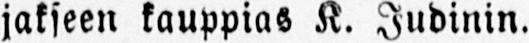jakseen kauppias K. Judinin.
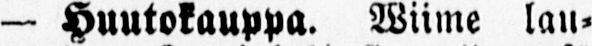— Huutokauppa. Wiime lau-
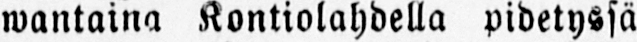wantaina Kontiolahdella pidetyssä
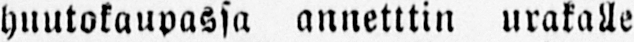huutokaupassa annettiin urakalle
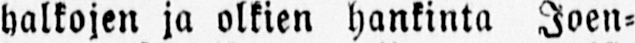halkojen ja olkien hankinta Joen-
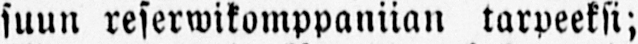suun reserwikomppaniian tarpeeksi;
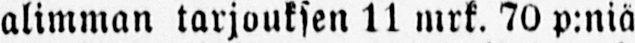alimman tarjouksen 11 mrk. 70 p:niä
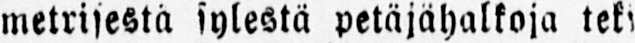metrisestä sylestä petäjähalkoja teki
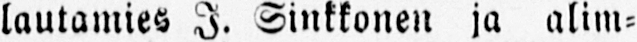lautamies I. Sinkkonen ja alim-
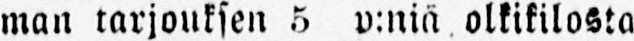man tarjouksen 5 p:niä olkikilosta
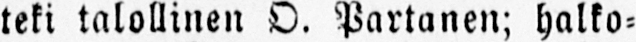teki talollinen O. Partanen; halko-
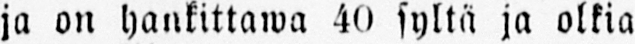ja on hankittawa 40 syltä ja olkia
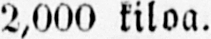2,000 kiloa.
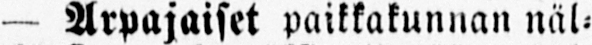— Arpajaiset paikkakunnan näl-
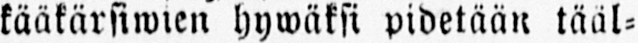kääkärsiwien hywäksi pidetään tääl-
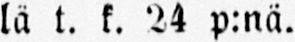lä t. k. 24 p:nä.
